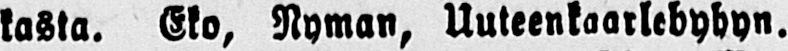kasta. Eko, Nyman, Uuteenkaarlebyhyn.
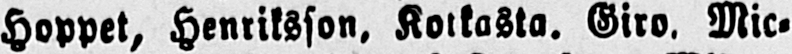Hoppet, Henriksson, Kolkasta. Giro. Mic-
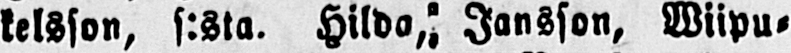kelsson, s:sta. Hilda, Jansson, Wiipu-
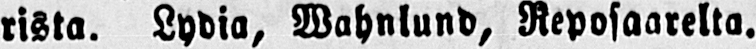rista. Lydia, Wahnlund, Reposaarelta.
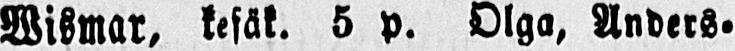Wismar, kesäk. 5 p. Olga, Anders-
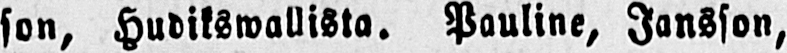son, Hudikswallista. Pauline, Jansson,
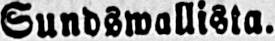Sundswallista.
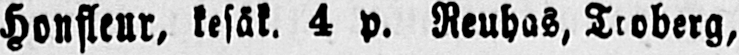Honfleur, kesäk. 4 p. Reuhas, Troberg,
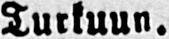Turkuun.
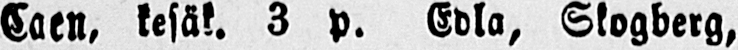Caen, kesäk. 3 p. Edla, Skogberg,
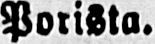Porista.
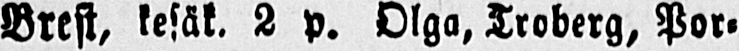Brest, kesäk. 2 p. Olga, Troberg, Por-
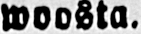woosta.
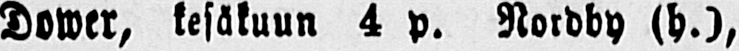Dower, kesäkuun 4 p. Nordby (h.),
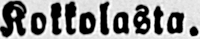Kokkolasta.
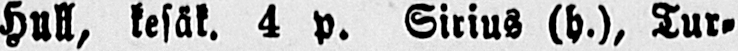Hull, kesäk. 4 p. Sirius (h.), Tur-
